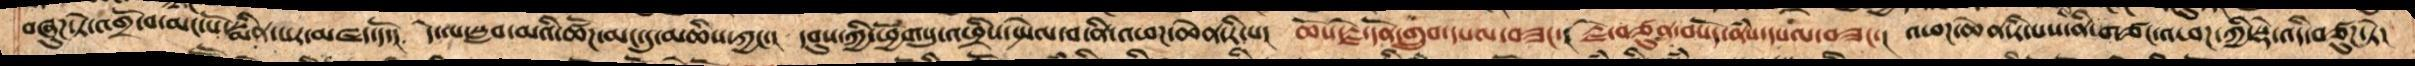བཞུཌ་ཏེ་འགྲོ་བ་མང་པོ་སྨིན་པར་མཛད་དོ།  དེ་ལ་སླབ་མའི་ཚོཌ་མང་དུ་མཆིས་ཀྱང་།  དབུས་ཀྱི་ཕྱོགསུ་འཕྲིས་སྤེལ་བ་ནི་འཕཌ་ཆེན་རི་པ།  ཆོས་རྗེ་དོན་གྲུབ་དཔལ་བཟང་།  རྗེ་བཙུན་བསོད་ནཾས་དཔལ་བཟང་།  འཕཌ་ཆེན་རི་པས་ནི་གཙང་འཕཌ་ཀྱི་སྡེ་འདི་བཙུཌ་ཏེ།
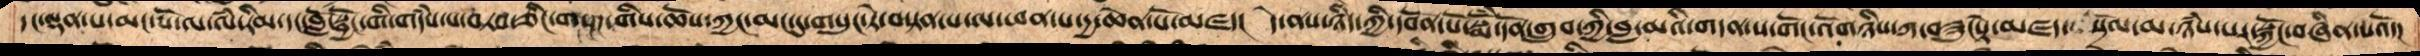དང་ལྡན་པ་མང་པོ་ལ་ལཾ་རིམ་དང་བློ་སྦྱོང་གི་གདཾས་པ་བཏབ་ཅིང་གསྔཌ་གིས་ཆོས་ཀྱང་མང་དུ་གསུང་ཏེ་བསྟན་པ་ལ་ཕན་པ་དྱ་ཆེན་པོ་མཛད།  དེ་ནས་ཉིད་ཀྱི་དབོན་པོ་སྨོཾ་དོན་གྲུབ་ཀྱི་བླ་མའི་གདན་ས་གོང་འོགཉིས་ཀ་བཟུངསྟེ་མཛད་སྲོལ་མ་ཉཾས་པར་སྐྱོང་བཞིན་པའོ་།
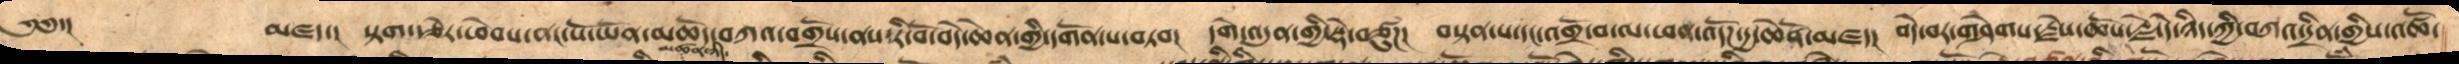༄༅་།       མཛད་། །སྟག་རྩེར་ཕེབས་ནང་པོ་ཡོན་མཆོད་བཀའ་བགྲོས་ནས་རི་བོ་བདེ་ཆེན་གྱི་དགོན་པ་བཏབ། དགེ་འདུན་གྱི་སྡེ་བཙུཌ། བསྟན་པ་དང་འགྲོ་བ་ལ་ཕན་འདོཌ་དྱ་ཆེནོ་མཛད།  བདེ་བར་གཤེགས་རྗེས་ཆོས་རྗེ་དེ་ཉིད་ཀྱི་བཀའ་དྲིན་གྱིས་འཚོ་
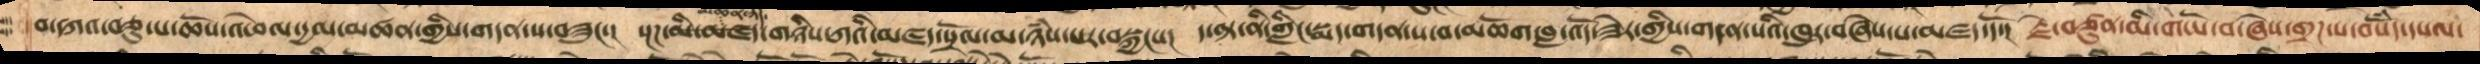བ་དཀའ་བཅུ་པ་ཆོས་འཕེལ་དྱལ་མཚན་གྱིས་གདན་ས་བཟུང་། སྔཌ་མི་མཛད་མཚན་ཉིད་གཉིས་ཀའི་མཛད་སྲོལ་མ་ཉཾས་པར་བསྐྱངས། ད་ལྟ་ནི་གླིང་སྨད་གདན་ས་བ་མཆོག་བླ་འོད་ཟེར་གྱིས་གདན་སའི་ཁུར་བཞེས་པ་མཛད་དོ།  རྗེ་བཙུན་མི་གཡོ་བ་ཞེས་གྲཌ་པ་བསོཾད་དཔལ་
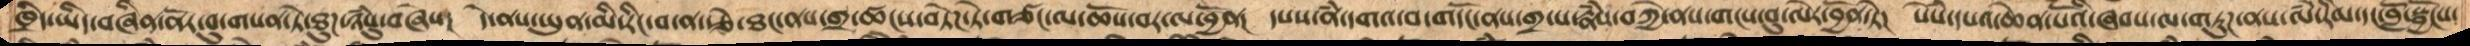ཁྲིད་ཡིད་བཞིན་ནོར་བུ་གསན་ཏེ་ཐུཌ་ཉཾསུ་བཞེས།  དེ་ནསཡུན་མི་རིང་བ་ན་རྩེ་ཐང་ནས་གྲ་ཚངས་བཏེཌ་ཏེ་གཙང་ལཆོས་བར་ལ་བྱོན།  དཔས་ནཾ་དགའ་བ་གདོང་ནས་གྲ་པ་རྣཾས་བཀྱེ་ནས་གངས་བུ་ལེར་བྱོན་ཏེ།  སེཾས་དཔའ་ཆེན་པོའི་ཞབས་ལ་གཏུཌ་ནས་ལཾ་རིམ་དང་བློ་སྦྱོངས་
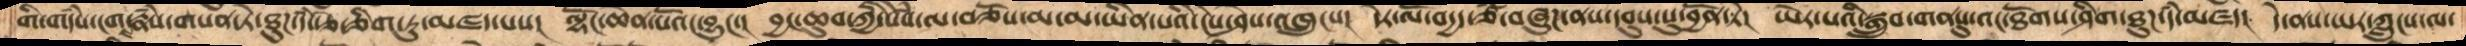གི་གདཾས་ངག་རྣཾས་གསན་ཏེ་ཐུཌ་དཾ་རྩེ་ཅིག་ཏུ་མཛད་པས།  ལྷོང་ཆེན་པོའང་བྱུང་།  བྱང་ཆུབ་ཀྱི་སེཾས་ལ་བཅོས་མ་ཡིན་པའི་ངེས་ཤེས་འཁྲུངས།  དེར་ལོ་བདྱད་ཙཾ་བཞུཌ་ནས་དབུས་སུ་བྱོན་ཏེ།  ཡེར་པའི་སྒྲུབ་གནསུའང་ཐོགས་ཤིག་ཐུད་དཾ་མཛད།  དེ་ནས་ཡར་ཀླུངས་ལ་
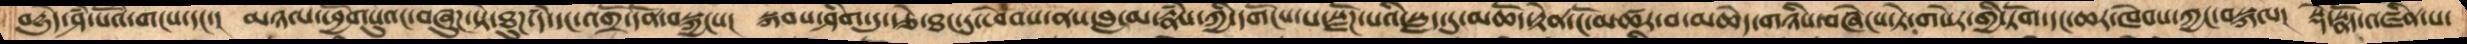བདྱུདེ་ཤཾ་པོའི་གངས་དང་།  མཉལ་ཕྱོགསུའང་བཞུཌ་ཏེ་ཐུཌ་དཾ་དང་འགྲོ་དོན་བསྐྱངས།  སྐབས་ཤིག་དུ་རྩེ་ཐང་དུ་ཕེབས་ནས་བླ་མ་རྣཾས་ཀྱི་དགོངས་པ་སྫོཌ་པའི་སླད་དུ་མཆོད་རྟེན་ངོ་མཚར་བ་མཆེད་གཉིས་བཞེངས་ཏེ་གསེར་གྱི་ཏོག་དང་ཆར་ཁེབས་ཀྱང་བསྐལ།  སྡེ་སྣོད་འཛིན་པ་
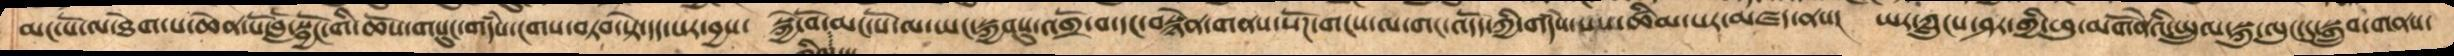པ་མང་པོ་ལ་ཐེག་པ་ཆེན་པོ་བློ་སྦྱོང་གི་ཆོས་གསུང་གདཾས་ངགས་བཏབ་སྟེ་དད་པར་བྱས།  སྐྱེ་བོ་མང་པོ་ལ་ཡང་སྐྱབསུ་འགྲོ་བ་དང་བསྙེན་གནས་སོཌ་གངས་ལ་གང་འདོད་ཀྱི་གདཾས་པས་ཚིམ་པར་མཛད་ནས།  ཡར་ཀླུངས་ཤར་གྱི་ཕུ་མགོནེའི་སྤྲུལ་སྐུ་ལུང་དུ་སྒྲུབ་གནས་
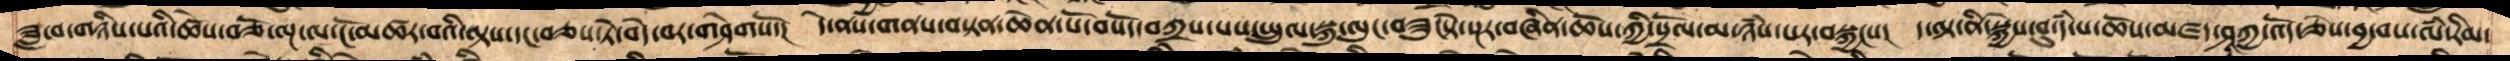ཟླ་བ་གཉིས་པའི་ཚེས་བཅོ་ལྔ་ལ་ངོ་མཚར་བའི་ལྟས་དང་བཅས་ཏེ་བདེ་བར་གཤེགསོ།  དེ་ནས་གནས་བསྟན་ཆེན་པོ་བསོད་བཀྲས་པས་སྤྲུལ་སྐུ་ལུང་བཟུངསྟེ་སྔར་བཞིན་ཆོས་ཀྱི་སྲོལ་མ་ཉཾས་པར་བསྐྱངས།  ད་ལྟ་ནི་སྐྱེས་བུ་དཾ་པ་ཆོས་མཛད་ཤཱཀྱ་འོད་ཅེས་བྱ་བས་ལཾ་རིམ་
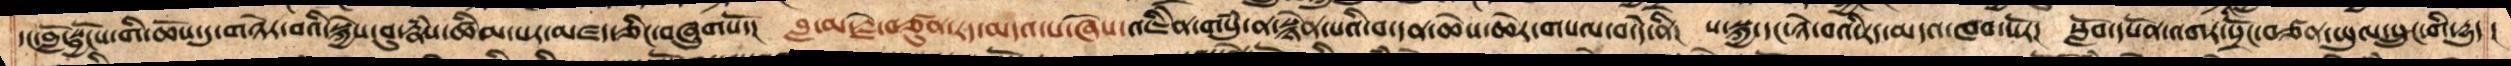དང་བློ་སྦྱོངས་གི་ཆོས་དུ་གཉེར་བའི་སྐྱེས་བུ་རྣཾས་ཚིམ་པར་མཛད་ཅིང་བཞུགསོ།  བླ་མ་རྗེ་བཙུན་རད་མདའ་པ་ཞེས་འཇིེན་གསུཾ་ན་བསྙེན་པའི་བ་དན་ཆེས་ཆེར་གསལ་བ་དེ་ནི།།  ས་སྐྱ་དང་ཉེ་བའི་རད་མདའ་ཁབ་སོར།  སློབ་དཔོན་འགར་སྲོང་བཙན་ཡུལ་སྲུང་གི་དྱུད་
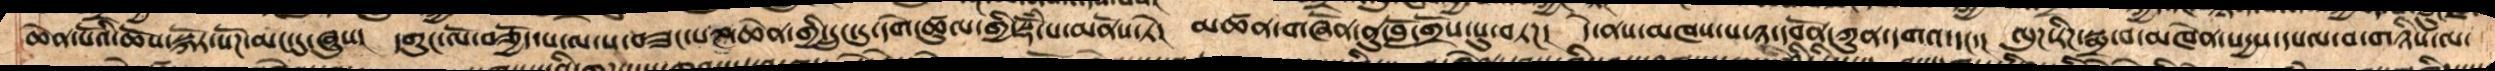ཆེན་པོའི་ཆོས་སྐོར་སོཌ་མང་དུ་ཞུས།  དགུང་ལོ་བཅྱོད་པ་ལ་ས་བཟང་པཎ་ཆེན་གྱི་དྲུང་དུ་དགེ་ཚུལ་གྱི་སྡོཾ་པ་མནོས་ཏེ།  མཚན་གཞོན་ནུ་བློ་གྲོས་སུ་བཏཌ།  དེ་ནས་མཁས་པ་ཉ་དབོན་ཀུན་དགའ་དང་།  ལུང་རིཌ་སྨྲ་བ་མཁེན་སདྱས་དཔལ་བ་གཉིས་ལ་
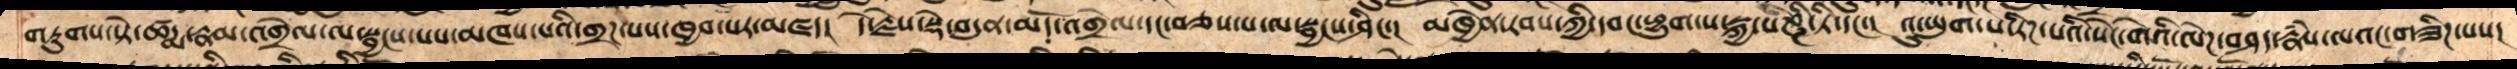གཏུགས་སྟེ་ཚདྨ་རྣམ་འགྲེལ་ལ་སྦྱངས་པས་མཁས་པའི་གྲཌ་པས་ཁྱབ་པར་མཛད།  དེ་རྗེས་སྡེ་བདུན་མདོ་འགྲེལ་དང་བཅས་པ་ལ་སྦྱངས་ཤིང་།  མཁྱེན་རབས་ཀྱི་དབང་ཕྱུག་ས་སྐྱ་པཎྚི་ཏི་དང་།  འུ་ཡུག་པ་རིཌ་པའི་སེང་གེའི་ལེཌ་བཤད་རྣཾས་ལའང་གཟིཌ་པས།
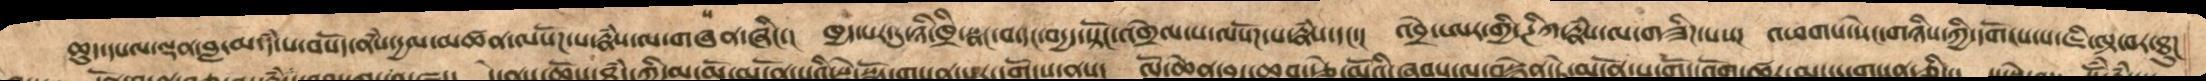ཆུད་དཔལ་ལྡན་བླ་མ་དཾ་པ་བསོད་ནཾས་དྱལ་མཚན་ལསོཌ་པ་རྣཾས་ལ་གཞན་ཞིང་། ཁྱད་པར་དུ་ཉི་ཁྲི་སྣང་བ་དང་བདྱད་སྟོང་འགྲེལ་པ་ལསོཌ་པ་རྣཾས་དང་།  འབྲེ་ཨར་གྱི་ཊིཀ་རྣཾས་ལ་གཟིཌ་པས། འཕགས་སེང་གཉིས་ཀྱི་དགོངས་པ་ཇི་ལྟ་བར་ཐུཌ
